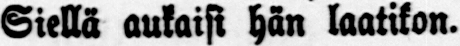Siellä aukaisi hän laatikon.
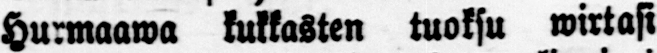Hurmaawa kukkasten tuoksu wirtasi
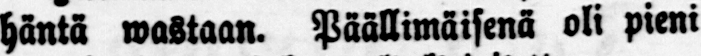häntä wastaan. Päällimäisenä oli pieni
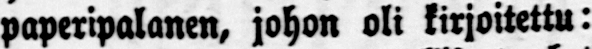paperipalanen, johon oli kirjoitettu:
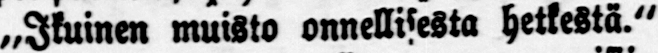„Ikuinen muisto onnellisesta hetkestä."
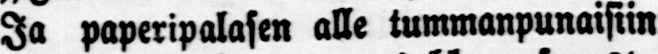Ja paperipalasen alle tummanpunaisiin
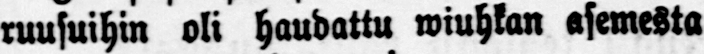ruusuihin oli haudattu wiuhkan asemesta
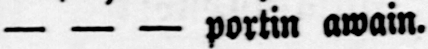— — — portin awain.
